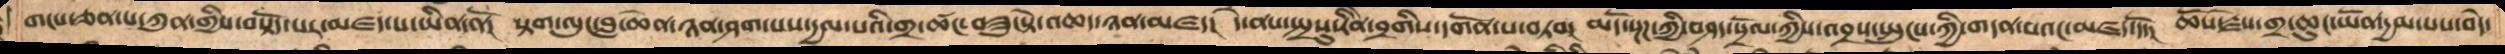གངས་ཅན་པ་ཀུན་གྱིས་བསྟོད་པར་མཛད་པ་ཡིན་ནོ།  སྟག་ལུང་བླ་ཆེན་ཉན་ཤག་པས་དྱལ་པའི་གྲ་ཚང་བཟུངསྟེ་འཆད་ཉན་མཛད།  དེ་ནས་སྤྲསུ་རིནེ་བྲགིས་དགོན་པ་བཏབ།  མདོ་སྔཌ་ཀྱི་བཤད་སྲོལ་ཀྱིས་འབྲས་སྤུངས་ཀྱི་གདན་པའང་མཛད་དོ་།   ཆོས་རྗེས་གྲ་ཆུང་ཡོན་དྱམ་པས་བདེ་
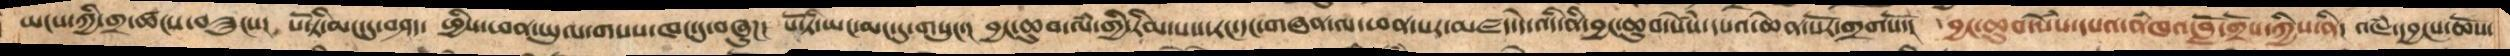ཡངས་ཀྱི་གྲ་ཚང་བཟུངས།  པོ་ཏི་མང་དུ་བཤད།  ཕྱིས་འཕན་ཡུལ་གསས་ཁང་དུ་བཞུཌ།  པོ་ཏི་ཡང་མང་དུ་གསུང་།  བྱང་ཆུབ་ལཾ་གྱི་རིམ་པས་རང་དང་གཞན་ལ་ཕན་པར་མཛད་དེ་འདི་ནི་བྱང་ཆུབ་སེཾས་དཔའ་ཆེན་པོར་གྲགསོ།  བྱང་ཆུབ་སེཾས་དཔའ་ནཾཁའ་བློ་གྲོས་ཀྱིས་ནི།  འཇཾ་དབྱངས་ཆོས་
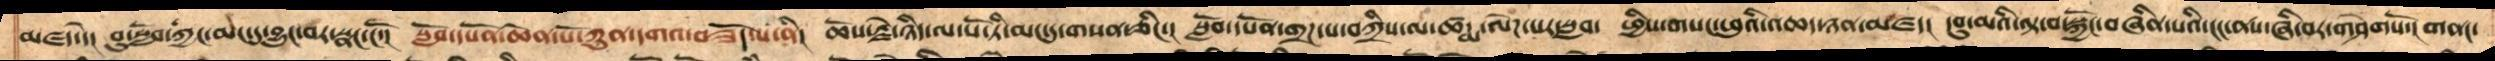མཛད་དེ།  བུ་སློབ་ཀྱང་མང་དུ་བྱུང་བར་སྣང་ངོ་།  སློབ་དཔོན་ཆེན་པོ་ཀུན་དགའ་བཟོད་པ་ནི།  ཆོས་རྗེ་ཉིད་ལ་པོ་ཏི་མང་དུ་གསན་ཅིང་།  སློབ་དཔོན་གྲཌ་པ་བཀྲིས་ལ་ཚདྨ་ལེཌ་པར་བསླབ།  ཕྱིས་གསང་ཕུའི་འཆད་ཉན་མཛད།  དབུ་མའི་ལྟ་བ་སྐྱོང་བཞིན་པའི་ངང་ནས་ཞི་བར་གཤེགསོ་།  གནང་
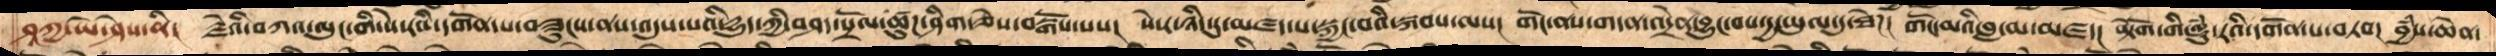ཤཱཀྱ་ཡེ་ཤེས་ནི།  རྗེའི་བཀའ་ལུང་གི་སེ་རའི་དགོན་པ་བཟུང་ནས་འདུས་པའི་དྱུད་ཀྱི་བཤད་སྲོལ་ཚུཌ་ཤིག་ཅེས་བསྒོས་པས།  སེ་ར་ཉིད་དུ་མཛད་པ་སྐྱང་བའི་སྐབས་ལས།  གོང་ནས་གདན་འདྲེན་བྱུང་བས་དྱ་ཡུལ་དུ་ཐེཌ།  གོང་མའི་བླ་མ་མཛད།  མྟེགོ་གི་ལྡུཾ་རའི་དགོན་པ་བཏབ།  བྱཾས་ཆེན་
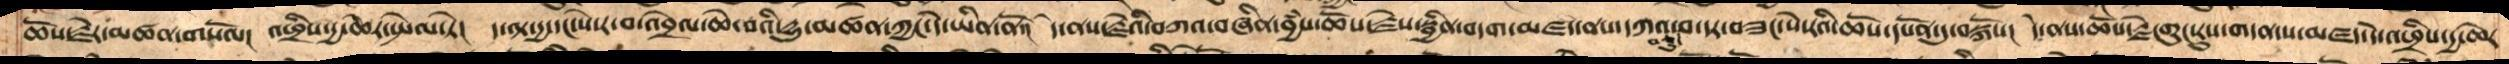ཆོས་རྗེར་མཚན་གསོལ། འཕྲིས་དྱ་ཆེར་སྤེལ་ཏེ། ད་ལྟ་དྱ་དང་སེ་ར་བ་འབྲེལ་ཆེ་བས་དྱུ་མཚན་ཀྱང་དེ་ཡིན་ནོ་།  དེ་ནས་རྗེའི་བཀའ་བཞིན་བྱཾས་ཆོས་རྗེས་སྦྱིན་བདག་མཛད་ནས་དཀའ་བཅུ་བ་དར་བཟང་སེ་རའི་ཆོས་དཔོན་དུ་བསྐོས་།  དེ་ནས་ཆོས་རྗེ་གུང་རུས་གདན་ས་མཛད་དེ་འཕྲིས་དྱ་ཆེར
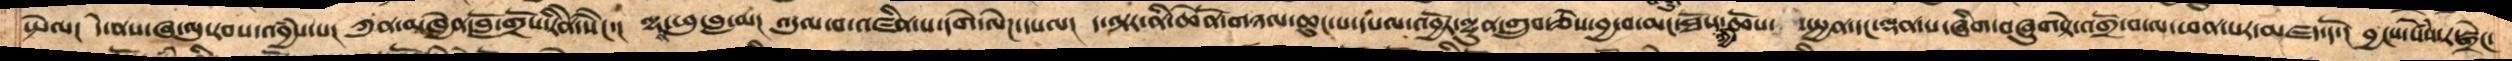སྤེལ། དེ་ནས་ཞ་ལུ་རབས་འབྱཾས་པ། ཀུན་མཁྱེན་བློ་གྲོས་རིནེ་སེངེ་།  ལྷ་ཕུ་བླ་མ།  འདུལ་བ་འཛིན་པ་དགེ་ལེཌ་དཔལ།  ད་ལྟར་ནི་ཆེནོ་གཉལ་ཆུང་པ་དཔལ་འབྱོར་ལྷུན་གྲུབ་ཅེས་བྱ་བ་མང་ཐོས་ཀྱི་ཆོས་ སྤྱན་དང་ལྡན་པ་ཞིག་བཞུགསྟེ་འགྲོ་བ་ལ་ཕན་པར་མཛད་དོ་།  བྱངས་སེཾས་ར་སྒྲེང་
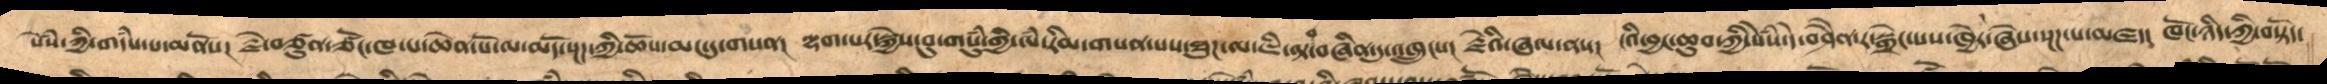སེཾས་ཀྱི་གདཾས་པ་མནོས།  རྗེ་བཙུན་ཙོང་ཁ་པ་ཆེན་པོ་ལ་མདོ་སྔཌ་ཀྱི་ཆོས་མང་དུ་གསན།  ལྷག་པར་སྐྱེས་བུ་གསུཾ་གྱི་ལཾ་རིམ་གསན་པས་ཐུཌ་ལ་ཇི་ལྟ་བ་བཞིན་དུ་འཁྲུངས།  རྗེའི་ཞལ་ནས།  ངའི་བྱང་ཆུབ་ཀྱི་སེཾས་དེ་བཤཻན་ར་སྒྲེང་པས་ཁྱེར་ཞེས་སྔཌ་པ་མཛད།  ཁོང་ཉིད་ཀྱི་བསྟོད་
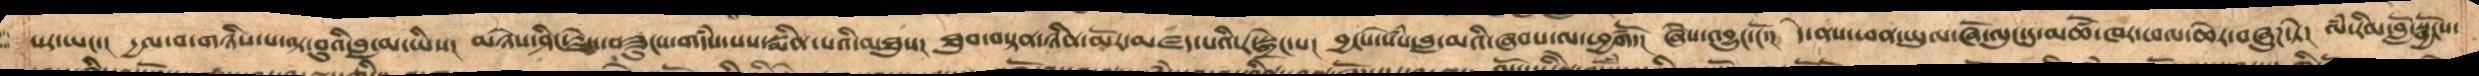པར་ཡང་།  དྱལ་བ་གཉིས་པ་ལྟ་བུའི་བླ་མ་ཡིས།  མཉེས་ཤིང་རྗེས་བཟུངས་གདཾས་པས་སྨིན་པའི་མཐུས།  ཐུབ་བསྟན་ཉིན་མོར་མཛད་པའི་ར་སྒྲེང་པ།  བྱངས་སེཾས་བླ་མའི་ཞབས་ལ་ཕྱགཚོ་།  ཞེས་འབྱུང་ངོ་།  དེ་ནས་ཕན་ཡུལ་ཞོ་ལུང་དུ་མཚོ་ཁར་ཕལ་ཆེར་བཞུཌ་ཏེ།  ལཾ་རིམ་བློ་སྦྱོངས་
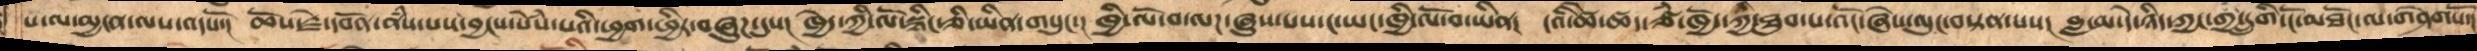པ་ལ་མྱངན་ལས་འདསོ་།  ཆོས་རྗེ་དབེན་ནཾས་པས་བྱངས་སེཾས་པའི་ཕྱག་ཕྱིར་བཞུཌ་དུས།  ཁྱེད་ཀྱི་ལོ་སྙིང་ཅི་ཡིན་གསུང་།  ཁྱི་ལོ་བ་ལཌ་ཞུས་པས་ང་ཡང་ཁྱི་ལོ་བ་ཡིན།  ངའི་ཚེ་ཚད་ཙཾ་ཁྱེད་ཀྱི་ཐུབ་པ་འོང་ཞེས་ལུང་བསྟན་པས།  བླ་མ་དེ་ཉིད་ཀྱང་གྱ་དྲུགི་ངོ་མཐོང་ལ་གཤེགསོ
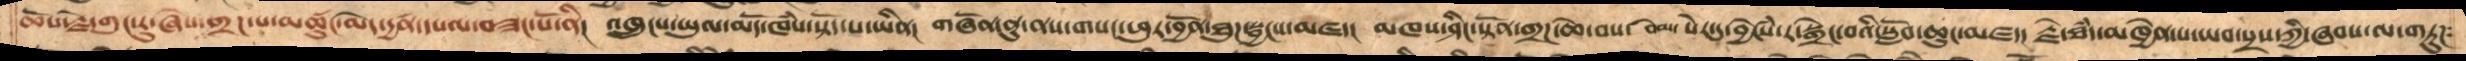ཆོས་རྗེ་གུང་རུ་ཞེས་གྲཌ་པ་མཚུང་མེད་དྱཚན་དཔལ་བཟང་པོ་ནི།  འཁྲུངས་ཡུལ་མདོ་ཁཾས་སྟོད་པ་ཡིན།  གཞོན་ནུ་ནས་གསང་ཕུར་བྱོན་ཐུཌ་སྦྱངས་མཛད།  མཁས་ཤིང་སྟོན་གྲཌ་ཆེ་བས་ བེམ་  སེར་དུ་བྱངེཾས་ར་སྒྲེང་བའི་སློབ་ཆུང་མཛད་  རྗེ་ཐཾད་མཁྱེན་པ་ཡབ་སྲས་ཀྱི་ཞབས་ལ་གཏུཌ་
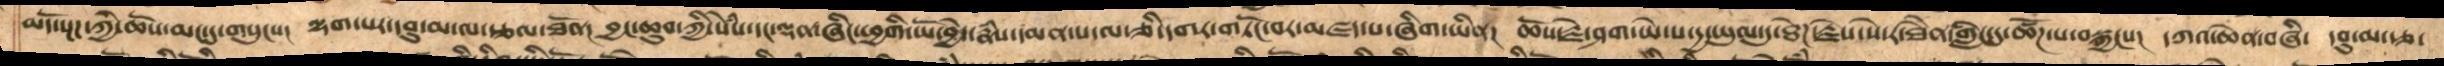མདོ་སྔཌ་ཀྱི་ཆོས་མང་དུ་གསུངས།  ལྷག་པར་དབུ་མ་ལ་རྩལ་ཐོན།  བྱང་ཆུབ་ཀྱི་སེཾས་དང་ལྡན་ཞིང་ཕྱགི་ཡོ་བྱེད་རྣཾས་དམན་པ་ལ་ཅི་དགར་གཏོང་བར་མཛད་པ་ཞིག་ཡིན།  ཆོས་རྗེ་ཤག་ཡེ་ས་དྱ་ཡུལ་དུ་ཐེཌ་རྗེས་སེ་ར་ཐཻན་གླིང་དུ་ཚོཌ་པ་བསྐྱངས།  དཀའ་ཆེན་བཞི་  དབུ་མ་རྩ་
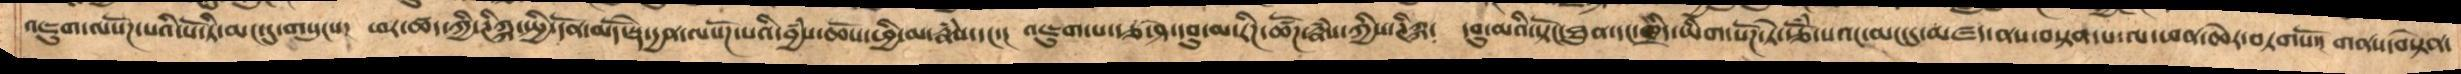འཇུག་ལསོཌ་པའི་པོ་ཏི་མང་དུ་གསུངས།  ཕར་ཚད་ཀྱི་ཊིཀྐ་སྤྱི་དོན་མདོ་སྡེ་དྱན་ལསོཌ་པའི་བྱཾས་ཆོས་ཕྱི་མ་རྣཾས་དང་།  འཇུག་པ་རྩ་ཤེ་དབུ་མ་རིཌ་ཚོཌ་རྣཾས་ཀྱིས་ཊིཀྐ་  དབུ་མའི་སྟོང་ཐུན་དང་ཁྲིད་ཡིག་སོཌ་ཏེ་རྩོཾ་པའང་མང་དུ་མཛད་ནས་བསྟན་པ་ལ་ཕན་ཆེར་བཏགསོ་།  གནས་བསྟེན་
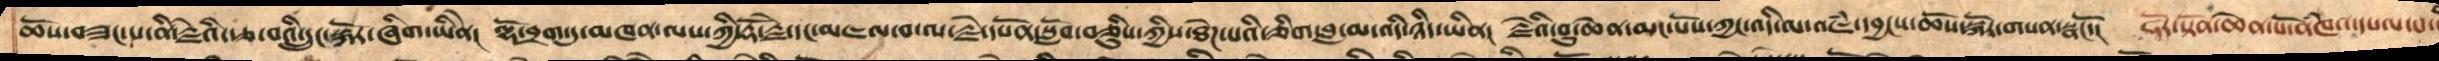ཆོས་བཟང་པ་ནི་རྗེའི་རྩ་བའི་དྲུང་སྐོར་ཞིག་ཡིནེ།  ལྷོ་བྲག་དུ་མཁན་ལས་ཀྱི་རྡོ་རྗེ་དང་མཇལ་བ་ལ་རྗེ་དཔོན་སློབ་བཅིུས་ཀྱིས་ཐེཌ་པའི་ཅིག་བླ་མ་འདི་ཉིད་ཡིན།  རྗེའི་བུ་ཆེན་མང་པོས་ཀྱང་འདི་ལ་འཇཾ་དབྱངས་ཆོས་སྐོར་གསན་སྣངོ་།   ཧོར་སྟོན་ཆེན་པོ་ནཾཁའ་དཔལ་བ
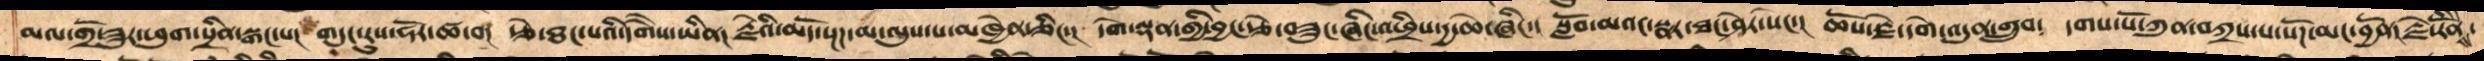མལ་གྲོ་ཟུར་ཕུག་སྲིན་སྒང་པ།  གདུང་རུས་ཧོར་ཚ་བ།  རྩེ་ཐང་པའི་དགཻས་ཡིན།  རྗེའི་མདོ་སྔཌ་མ་ལུས་པ་མཁྱེན་ཅིང་།  དགེ་ལྡན་གྱི་བྱང་རྩེ་བཟུང་ཞིང་འཕྲིས་དྱ་ཆེ་ཞིང་།  སློབ་མའང་སྣར་ཐང་ཤེར་སེང་།  ཆོས་རྗེ་དགེ་འདུན་གྲུབ་   དགས་པོ་ཀུན་བཀྲས་པ་སོཌ་མང་བྱོན།རྗེ་རིནོེ་
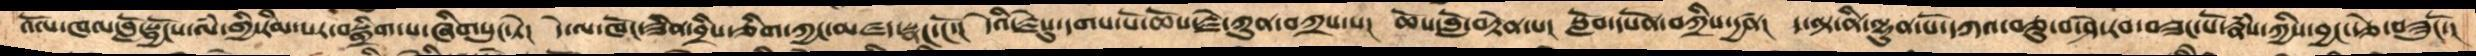འོལ་ཁལ་བློ་སྦྱོངས་ལཾ་གྱི་རིམ་པར་བསྒྲིག་པ་ཞིགསུང་ཏེ།  དེ་ལ་ཁོང་ཟིན་བྲིས་ཅིག་ཀྱང་མཛད་སྣང་ངོ་།  དེའི་རྗེསུ་དགས་པོ་ཆོས་རྗེ་ཀུན་བཀྲས་པ།  ཆོས་བློ་བརྟེན་པ།  སློབ་དཔོན་བཀྲིས་དྱཚན།  ད་ལྟ་ནི་ལྷུན་པོ་དཀའ་བཅུ་བ་ཤེ་རབ་བཟང་པོ་རྣཾས་ཀྱིས་བྱང་རྩེ་བཟུངོ་།
